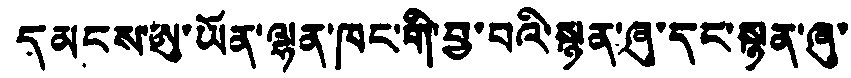དམངས་ཨུ་ཡོན་ལྷན་ཁང་གི་བྱ་བའི་སྙན་ཞུ་དང་སྙན་ཞུ་
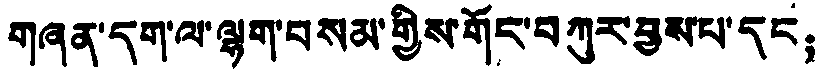གཞན་དག་ལ་ལྷག་བསམ་གྱིས་གོང་བཀུར་བྱས་པ་དང；
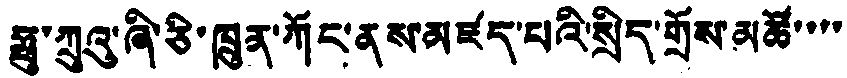ཧྥུ་ཀྲུའུ་ཞི་ཅི་ཁྲུན་ཀོང་ནས་མཛད་པའི་སྲིད་གྲོས་མཚོ་་་་་
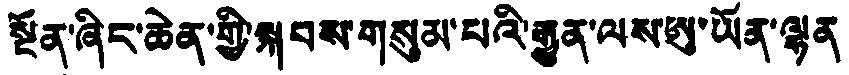སྔོན་ཞིང་ཆེན་གྱི་སྐབས་གསུམ་པའི་རྒྱུན་ལས་ཨུ་ཡོན་ལྷན
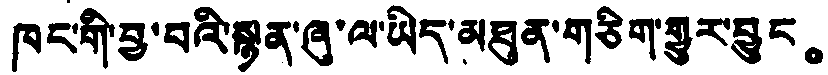ཁང་གི་བྱ་བའི་སྙན་ཞུ་ལ་ཡིད་མཐུན་གཅིག་གྱུར་བྱུང。
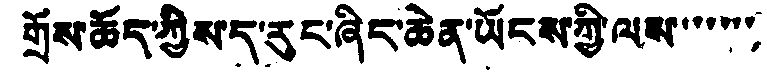གྲོས་ཆོད་ཀྱིས་ད་རུང་ཞིང་ཆེན་ཡོངས་ཀྱི་ལས་་་་་་་
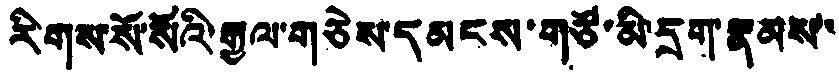རིགས་སོ་སོའི་རྒྱལ་གཅེས་དམངས་གཙོ་མི་དྲག་རྣམས་
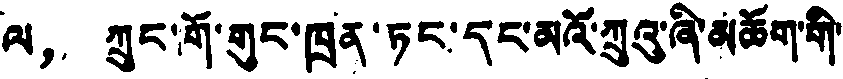ལ， ཀྲུང་གོ་གུང་ཁྲན་ཏང་དང་མའོ་ཀྲུའུ་ཞི་མཆོག་གི་
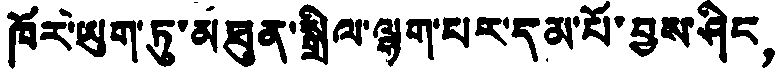ཁོར་ཡུག་ཏུ་མཐུན་སྒྲིལ་ལྷག་པར་དམ་པོ་བྱས་ཤིང，
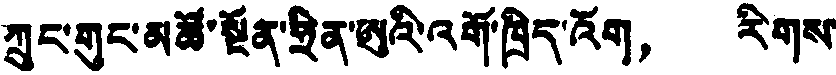ཀྲུང་གུང་མཚོ་སྔོན་ཧྲིན་ཨུའི་འགོ་ཁྲིད་འོག， རིགས་
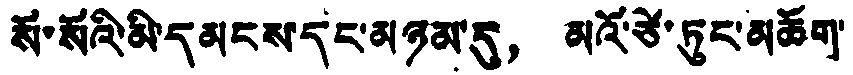སོ་སོའི་མི་དམངས་དང་མཉམ་དུ， མའོ་ཙེ་ཏུང་མཆོག་
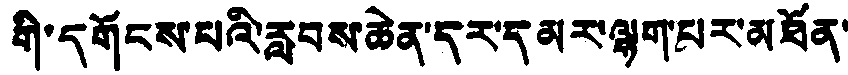གི་དགོངས་པའི་རླབས་ཆེན་དར་དམར་ལྷག་པར་མཐོན་
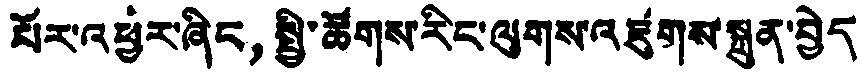པོར་འཕྱར་ཞིང， སྤྱི་ཚོགས་རིང་ལུགས་འཛུགས་སྐྲུན་བྱེད
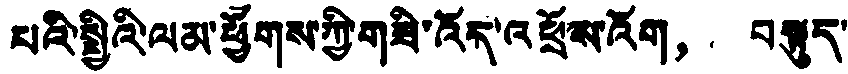པའི་སྤྱིའི་ལམ་ཕྱོགས་ཀྱི་གཟི་འོད་འཕྲོས་འོག， བསྟུད་
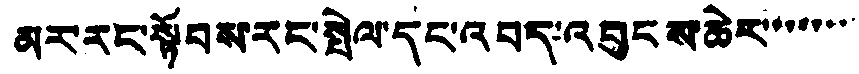མར་རང་སྟོབས་རང་སྤེལ་དང་འབད་འབུངས་ཆེར་་་་་་་་
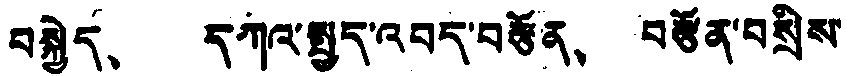བསྐྱེད、 དཀའ་སྤྱད་འབད་བརྩོན、 བརྩོན་བསྲིས་
